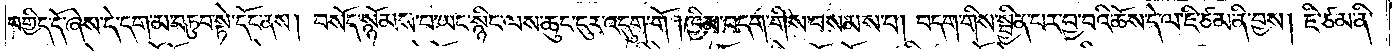བགྱིད་དོ་ཞེས་དེ་དག་མ་བཏུབ་སྟེ་དོང་ནས། བསོད་སྙོམས་པ་ཡང་སྙིང་ལས་ཆུང་ངུར་འདུག་གོ །ཁྱིམ་བདག་གིས་བསམས་པ། བདག་གིས་སྦྱིན་པར་བྱ་བའི་ཆོས་དེ་ལ་ཇི་ཙམ་ནི་བྱས། ཇི་ཙམ་ནི་
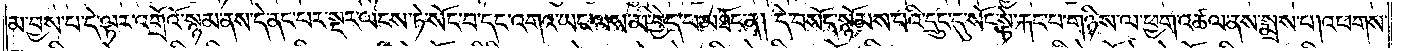མ་བྱས་པ་དེ་ལྟར་འགྲོའོ་སྙམ་ནས་དེ་ནང་པར་སྔར་ལངས་ཏེ་སོང་བ་དང་འགའ་ཡང་ལས་མི་བྱེད་པ་མཐོང་ན། དེ་བསོད་སྙོམས་པའི་དྲུང་དུ་སོང་སྟེ་རྐང་པ་གཉིས་ལ་ཕྱག་འཚལ་ནས་སྨྲས་པ། འཕགས་
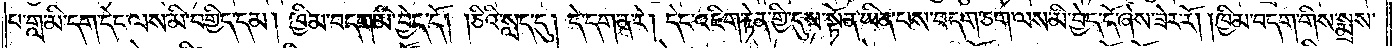པ་གླ་མི་དག་དེང་ལས་མི་བགྱིད་དམ། ཁྱིམ་བདག་མི་བྱེད་དོ། །ཅིའི་སླད་དུ། དེ་དག་ན་རེ། དེང་འཇིག་རྟེན་གྱི་དུས་སྟོན་ཡིན་པས་བདག་ཅག་ལས་མི་བྱེད་དོ་ཞེས་ཟེར་རོ། །ཁྱིམ་བདག་གིས་སྨྲས་
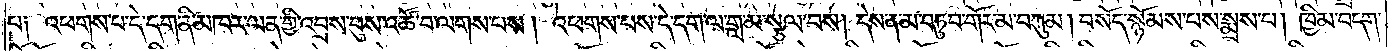པ༑ འཕགས་པ་དེ་དག་ནི་མཁར་ལན་གྱི་འབྲས་བུས་འཚོ་བ་ལགས་པས། འཕགས་པས་དེ་དག་ལ་གླ་མ་སྩལ་པས། དེས་ན་མ་བཏུབ་གོར་མ་བཀུམ། བསོད་སྙོམས་པས་སྨྲས་པ། ཁྱིམ་བདག་
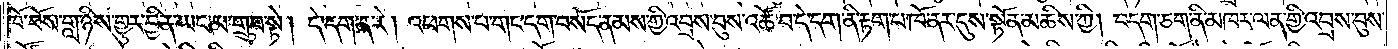ཁོ་བོས་གླ་ཉིས་གྱུར་བྱིན་ཡང་མ་གྲུབ་སྟེ། དེ་དག་ན་རེ། འཕགས་པ་གང་དག་བསོད་ནམས་ཀྱི་འབྲས་བུས་འཚོ་བ་དེ་དག་ནི་རྟག་པ་ཁོ་ནར་དུས་སྟོན་མཆིས་ཀྱི། བདག་ཅག་ནི་མཁར་ལན་གྱི་འབྲས་བུས་
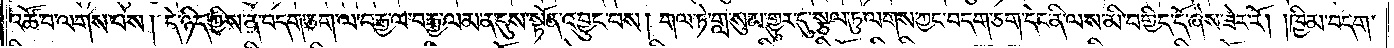འཚོ་བ་ལགས་པས། དེ་ཉིད་ཀྱིས་ན་བདག་ཅག་ལ་བརྒྱ་ལ་བརྒྱ་ལམ་ན་དུས་སྟོན་འབྱུང་བས། གལ་ཏེ་གླ་སུམ་གྱུར་དུ་སྩལ་ཏུ་ལགས་ཀྱང་བདག་ཅག་དེང་ནི་ལས་མི་བགྱིད་དོ་ཞེས་ཟེར་རོ། །ཁྱིམ་བདག་
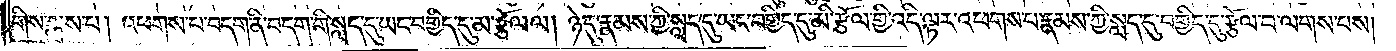གིས་སྨྲས་པ། འཕགས་པ་བདག་ནི་བདག་གི་སླད་དུ་ཡང་བགྱིད་དུ་མ་རྩོལ་ལ། ཉེ་དུ་རྣམས་ཀྱི་སླད་དུ་ཡང་བགྱིད་དུ་མི་རྩོལ་གྱི་འདི་ལྟར་འཕགས་པ་རྣམས་ཀྱི་སླད་དུ་བགྱིད་དུ་རྩོལ་བ་ལགས་པས།
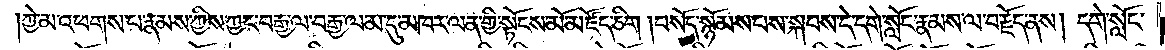།ཀྱེ་མ་འཕགས་པ་རྣམས་ཀྱིས་ཀྱང་བརྒྱ་ལ་བརྒྱ་ལམ་དུ་མཁར་ལན་གྱི་སྟོངས་མོ་མཛོད་ཅིག །བསོད་སྙོམས་པས་སྐབས་དེ་དགེ་སློང་རྣམས་ལ་བརྗོད་ནས། དགེ་སློང་
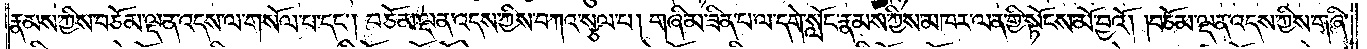རྣམས་ཀྱིས་བཅོམ་ལྡན་འདས་ལ་གསོལ་པ་དང༌། བཅོམ་ལྡན་འདས་ཀྱིས་བཀའ་སྩལ་པ། གཞི་མ་ཟིན་པ་ལ་དགེ་སློང་རྣམས་ཀྱིས་མཁར་ལན་གྱི་སྟོངས་མོ་བྱའོ། །བཅོམ་ལྡན་འདས་ཀྱིས་གཞི་
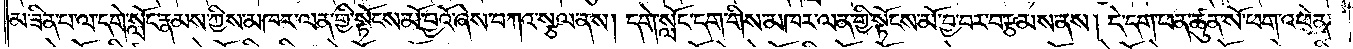མ་ཟིན་པ་ལ་དགེ་སློང་རྣམས་ཀྱིས་མཁར་ལན་གྱི་སྟོངས་མོ་བྱའོ་ཞེས་བཀའ་སྩལ་ནས། དགེ་སློང་དག་གིས་མཁར་ལན་གྱི་སྟོངས་མོ་བྱ་བར་བརྩམས་ནས། དེ་དག་ཕན་ཚུན་སོ་ཕག་འཕེན་
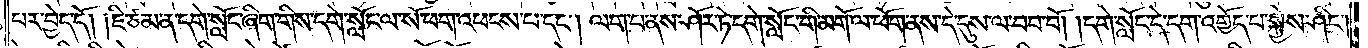པར་བྱེད་དོ། །ཇི་ཙམ་ན་དགེ་སློང་ཞིག་གིས་དགེ་སློང་ལ་སོ་ཕག་འཕངས་པ་དང༌། ལག་པ་ནས་ཤོར་ཏེ་དགེ་སློང་གི་མགོ་ལ་ཕོག་ནས་དེ་དུས་ལ་བབ་བོ། །དགེ་སློང་དེ་དག་འགྱོད་པ་སྐྱེས་ཤིང་
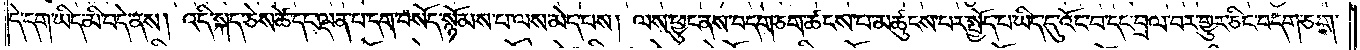དེ་དག་ཡིད་མི་བདེ་ནས། འདི་སྐད་ཅེས་ཚེ་དང་ལྡན་པ་དག་བསོད་སྙོམས་པ་ལས་མེད་པས། ལས་ཕྱུང་ནས་བདག་ཅག་ཚངས་པ་མཚུངས་པར་སྤྱོད་པ་ཡིད་དུ་འོང་བ་དང་བྲལ་བར་གྱུར་ཅིང་བདག་ཅག་
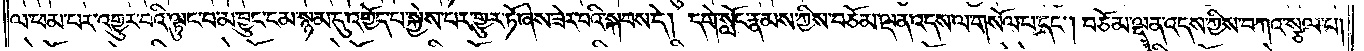ལ་ཕམ་པར་འགྱུར་བའི་ལྟུང་བ་མ་བྱུང་ངམ་སྙམ་དུ་འགྱོད་པ་སྐྱེས་པར་གྱུར་ཏོ་ཞེས་ཟེར་བའི་སྐབས་དེ། དགེ་སློང་རྣམས་ཀྱིས་བཅོམ་ལྡན་འདས་ལ་གསོལ་པ་དང༌། བཅོམ་ལྡན་འདས་ཀྱིས་བཀའ་སྩལ་པ།
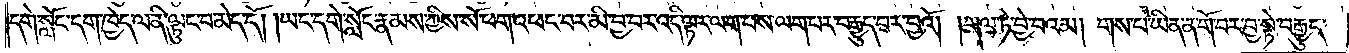དགེ་སློང་དག་ཁྱེད་ལ་ནི་ལྟུང་བ་མེད་དོ། །ཡང་དགེ་སློང་རྣམས་ཀྱིས་སོ་ཕག་འཕང་བར་མི་བྱ་བར་འདི་ལྟར་ལག་པས་ལག་པར་བརྒྱུད་བར་བྱའོ། །གལ་ཏེ་བྱེ་བའམ། གས་པ་ཡིན་ན་གོ་བར་བྱ་སྟེ་བརྒྱུད་
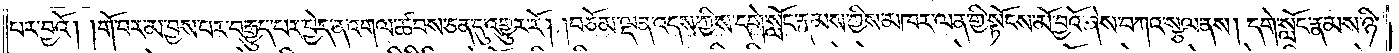པར་བྱའོ། །གོ་བར་མ་བྱས་པར་བརྒྱུད་པར་བྱེད་ན་འགལ་ཚབས་ཅན་དུ་འགྱུར་རོ། །བཅོམ་ལྡན་འདས་ཀྱིས་དགེ་སློང་རྣམས་ཀྱིས་མཁར་ལན་གྱི་སྟོངས་མོ་བྱའོ་ཞེས་བཀའ་སྩལ་ནས། དགེ་སློང་རྣམས་ཉི་
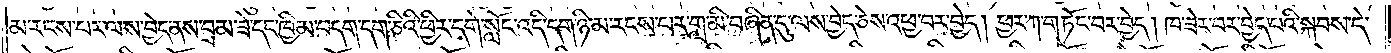མ་རངས་པར་ལས་བྱེད་ནས་བྲམ་ཟེ་དང་ཁྱིམ་བདག་དག་ཅིའི་ཕྱིར་དགེ་སློང་འདི་དག་ཉི་མ་རངས་པར་གླ་མི་བཞིན་དུ་ལས་བྱེད་ཅེས་འཕྱ་བར་བྱེད། ཕྱར་ཀ་གཏོང་བར་བྱེད། ཁ་ཟེར་བར་བྱེད་པའི་སྐབས་དེ་
